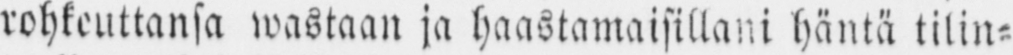rohkeuttansa wastaan ja haastamaisillani häntä tilin-
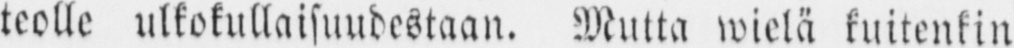teolle ulkokullaisuudestaan. Mutta wielä kuitenkin
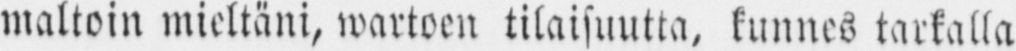maltoin mieltäni, wartoen tilaisuutta, kunnes tarkalla
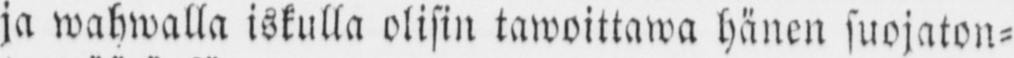ja wahwalla iskulla olisin tawoittawa hänen suojaton-
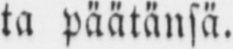ta päätänsä.
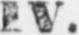IV.
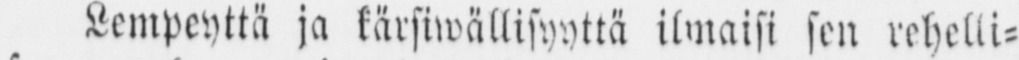Lempeyttä ja kärsiwällisyyttä ilmaisi sen rehelli-
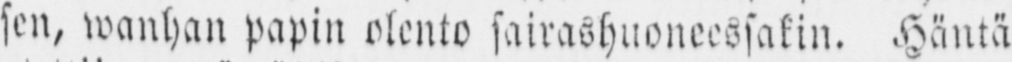sen, wanhan papin olento sairashuoneessakin. Häntä
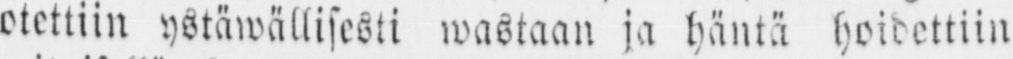otettiin ystäwällisesti wastaan ja häntä hoidettiin
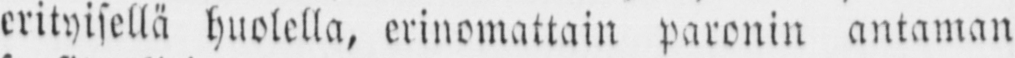erityisellä huolella, erinomattain paronin antaman
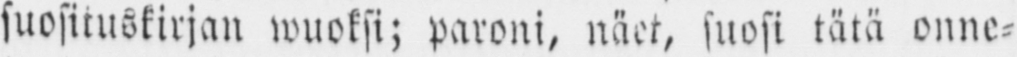suosituskirjan wuoksi; paroni, näet, suosi tätä onne-
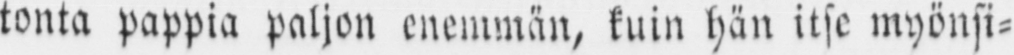tonta pappia paljon enemmän, kuin hän itse myönsi-
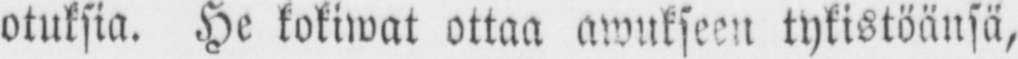otuksia. He kokiwat ottaa awukseen tykistöänsä,
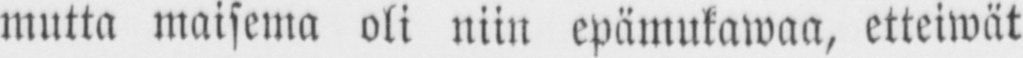mutta maisema oli niin epämukawaa, etteiwät
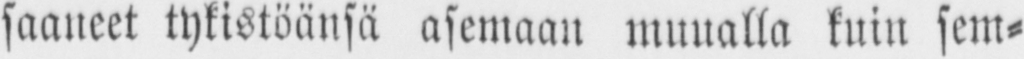saaneet tykistöänsä asemaan muualla kuin sem-
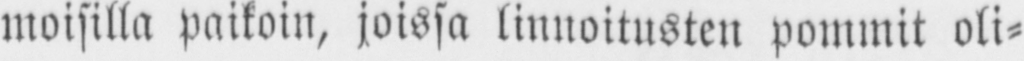moisilla paikoin, joissa linnoitusten pommit oli-
